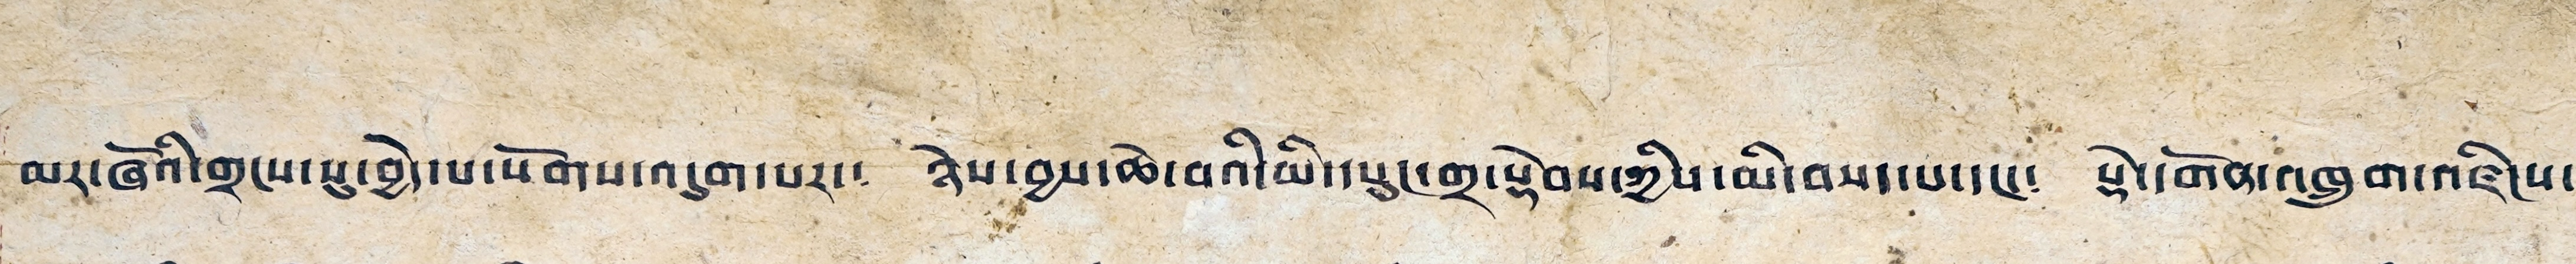མར་ཞོའི་གྲངས་སུ་བྱེད་པ་སོགས་འདུག་པར་༴ ཉེས་བྱས་ཆེ་བའི་མི་དཔུང་གྲ་སྡེབས་ཀྱིས་མི་བསད་པ་དང་༴ སྡེ་དགོན་འཁྲུག་འཛིངས་
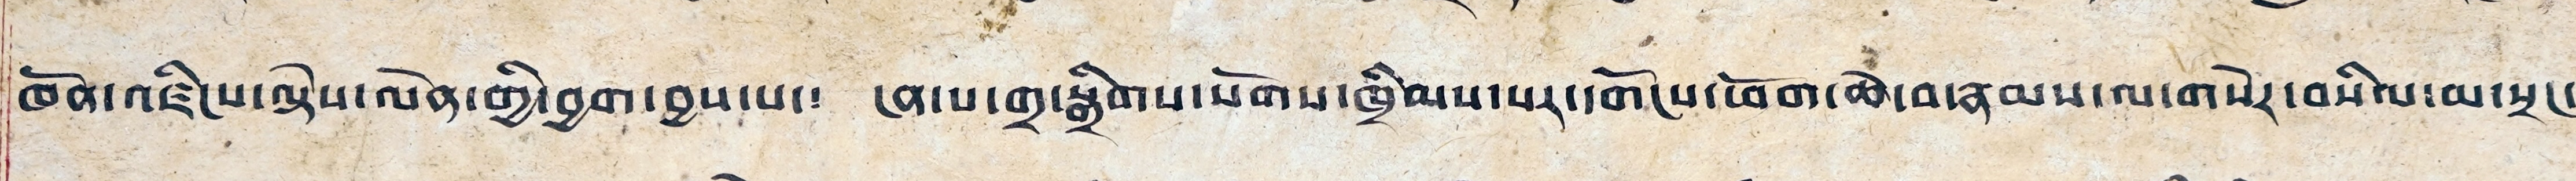ཁོན་འཛིངས་ལྟོས་ལེན་གྱི་བྱག་བྱས་པ་༴ ངན་པ་གྲ་སྒྲིགས་སོགས་ཁྲིམས་པར་དགོངས་ཕོག་ཆེ་བ་རྣམས་ལ་གསེར་བསིལ་མ་སྲང་
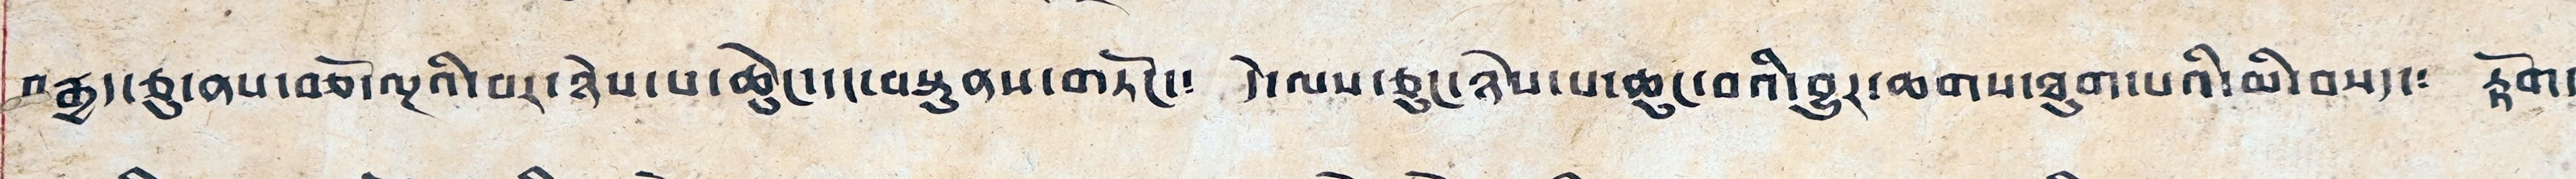བརྒྱད་ཅུ་ནས་བཅོ་ལྔའི་བར་ཉེས་པ་ཆེུང་དང་བསྟུནས་གཏོང་༴ དེ་ལས་ཅུང་ཉེས་པ་ཆུང་བའི་བྱུར་ཆགས་ཐུག་པའི་མི་བསད་༴ རྟོག་
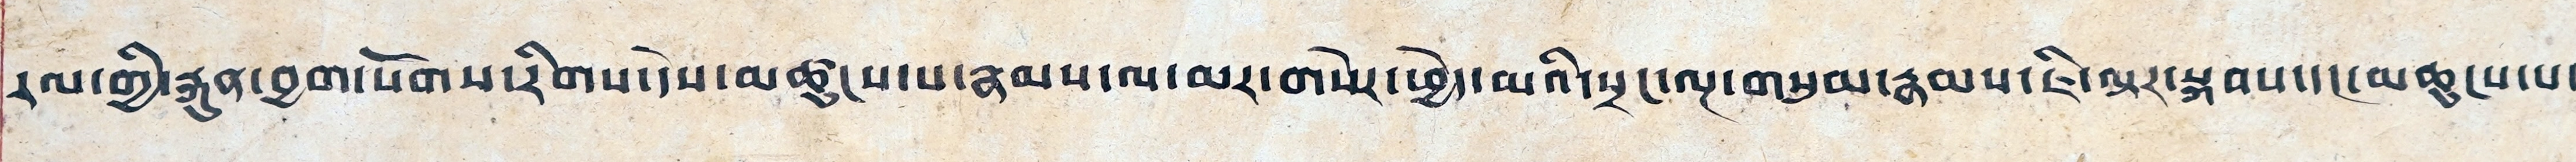རལ་གྱི་རྐུན་བྱག་སོགས་རིགས་དེས་མཚུངས་པ་རྣམས་ལ་མར་གསེར་ཕྱེད་མའི་སྲང་ལྔ་གསུམ་རྣམས་ཇི་ལྟར་སྐབས་དང་མཚུངས་པ་
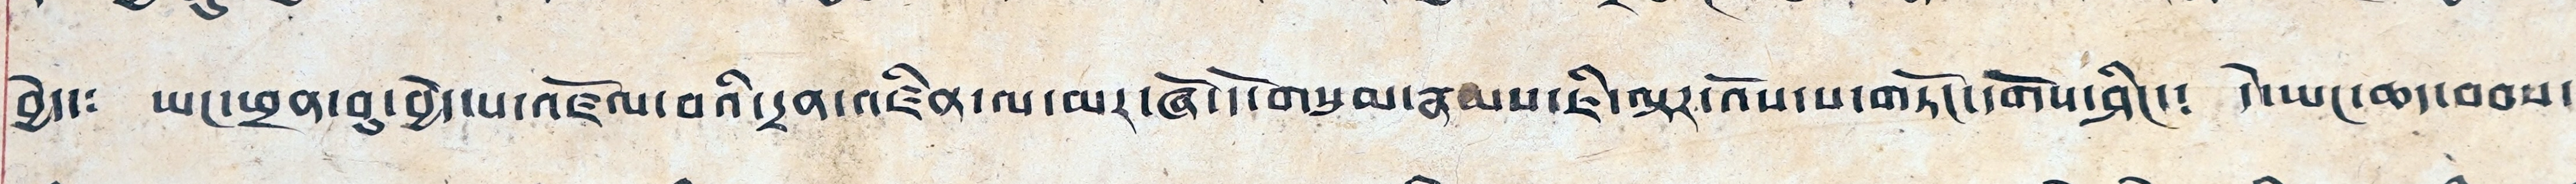བྱེད་༴ ཡང་ཕྲན་བུ་བྱེད་པ་འཛོལ་བའི་དྲན་འཛིན་ལ་མར་ཞོ་དོ་གསུམ་རྣམས་ཇི་ལྟར་འོས་པ་གཏོང་དགོས་ཤིང་༴ དེ་ཡང་ཆད་བབས་
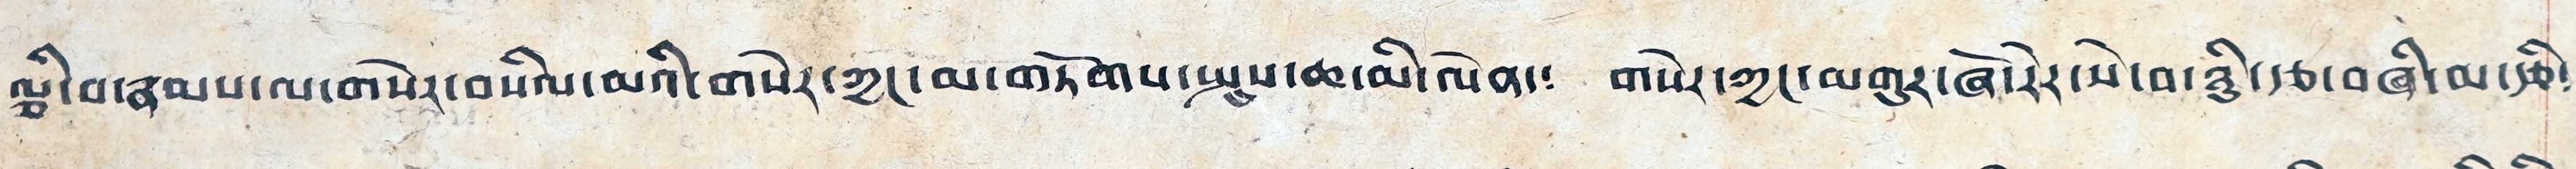ལྕི་བ་རྣམས་ལ་གསེར་བསིལ་མའི་གསེར་ཀྱང་མ་གཏོགས་སྤུས་ཆ་མི་ལེན་༴ གསེར་ཀྱང་མགུར་ཞོ་རེར་སེ་བ་ཉིུ་རྩ་བཞི་མ་རྩི༴
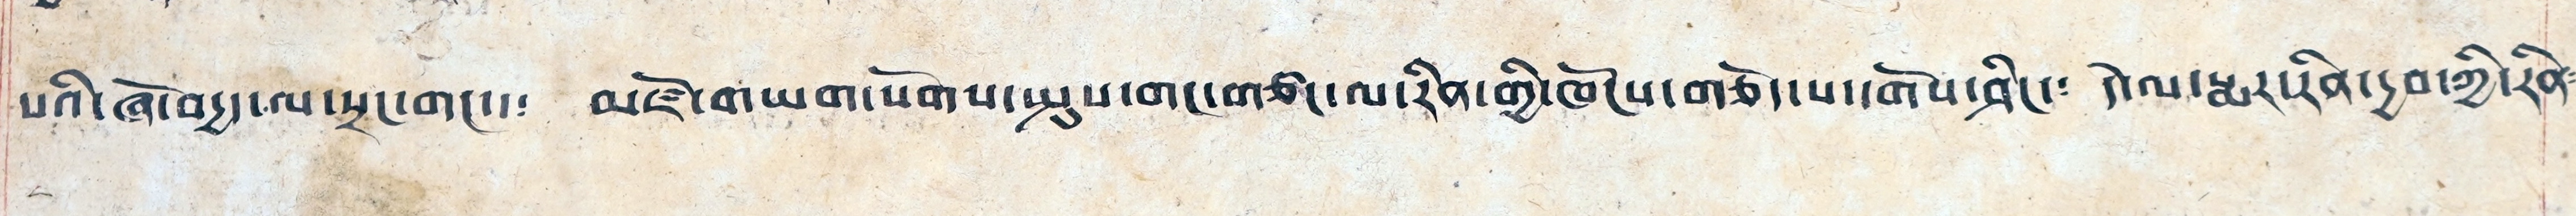པའི་ཞོ་བདྱ་ལ་སྲང་གང་༴ མཛོ་གཡག་སོགས་སྤུས་གང་གཙང་ལ་རིན་གྱི་ཁོངས་གཅོད་པ་དགོས་ཤིང་༴ དེ་ལ་སྨར་རིན་དྱབ་ཀྱི་རིན༴
